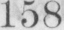158
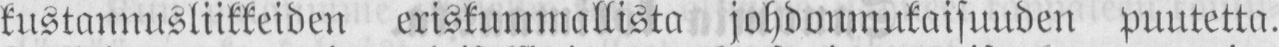kustannusliikkeiden eriskummallista johdonmukaisuuden puutetta.
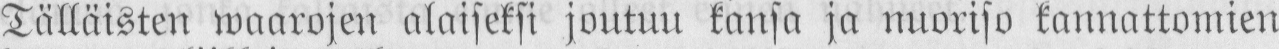Tällaisten waarojen alaiseksi joutuu kansa ja nuoriso kannattomien
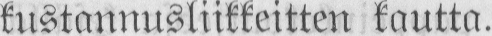kustannusliikkeitten kautta.
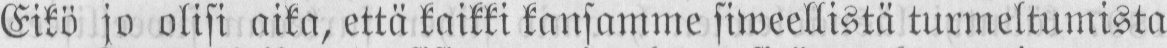Eikö jo olisi aika, että kaikki kansamme siweellistä turmeltumista
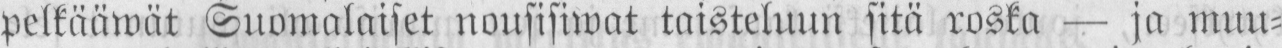pelkääwät Suomalaiset nousisiwat taisteluun sitä roska - ja muu-
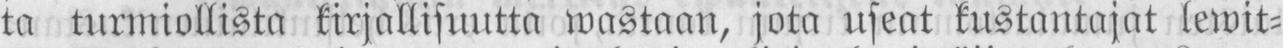ta turmiollista kirjallisuutta wastaan, jota useat kustantajat lewit-
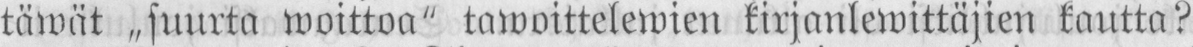täwät „suurta woittoa" tawoittelewien kirjanlewittäjien kautta?
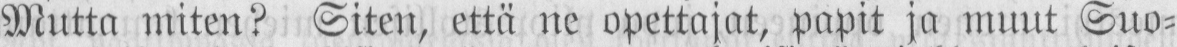Mutta miten? Siten, että ne opettajat, papit ja muut Suo-
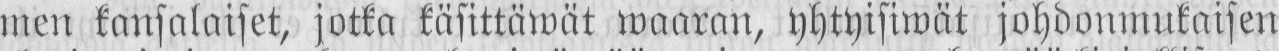men kansalaiset, jotka käsittäwät waaran, yhtyisiwät johdonmukaisen
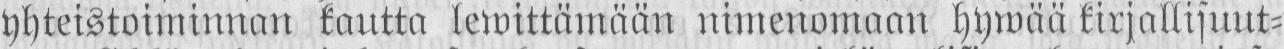yhteistoiminnan kautta lewittämään nimenomaan hywää kirjallisuut-
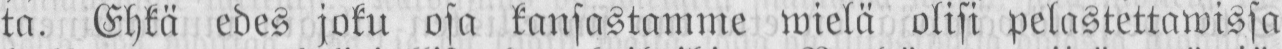ta. Ehkä edes joku osa kansastamme wielä olisi pelastettawissa
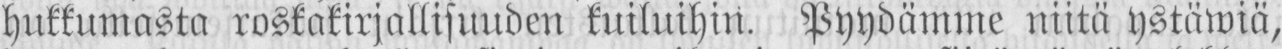hukkumasta roskakirjallisuuden kuiluihin. Pyydämme niitä ystäwiä,
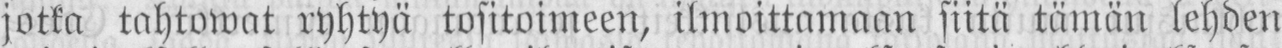jotka tahtowat ryhtyä tositoimeen, ilmoittamaan siitä tämän lehden
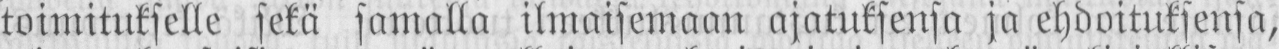toimitukselle sekä samalla ilmaisemaan ajatuksensa ja ehdoituksensa,
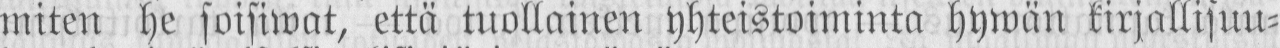miten he soisiwat, että tuollainen yhteistoiminta hywän kirjallisuu-
